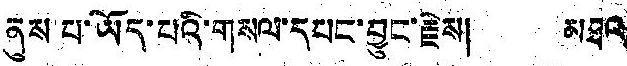ནུས་པ་ཡོད་པའི་གསལ་དཔང་བྱུང་རྗེས། མཐའ
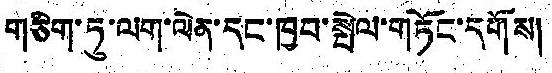གཅིག་ཏུ་ལག་ལེན་དང་ཁྱབ་སྤེལ་གཏོང་དགོས།
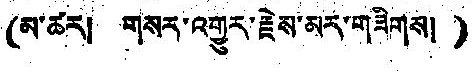(མ་ཚར། གསར་འགྱུར་རྗེས་མར་གཟིགས།)
